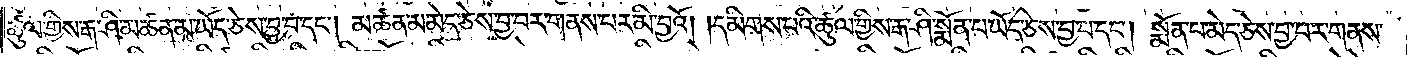ཚུལ་གྱིས་རྒ་ཤི་མཚན་མ་ཡོད་ཅེས་བྱ་བ་དང༌། མཚན་མ་མེད་ཅེས་བྱ་བར་གནས་པར་མི་བྱའོ། །དམིགས་པའི་ཚུལ་གྱིས་རྒ་ཤི་སྨོན་པ་ཡོད་ཅེས་བྱ་བ་དང༌། སྨོན་པ་མེད་ཅེས་བྱ་བར་གནས་
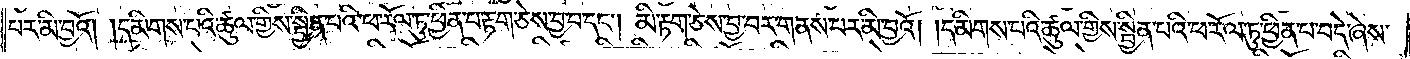པར་མི་བྱའོ། །དམིགས་པའི་ཚུལ་གྱིས་སྦྱིན་པའི་ཕ་རོལ་ཏུ་ཕྱིན་པ་རྟག་ཅེས་བྱ་བ་དང༌། མི་རྟག་ཅེས་བྱ་བར་གནས་པར་མི་བྱའོ། །དམིགས་པའི་ཚུལ་གྱིས་སྦྱིན་པའི་ཕ་རོལ་ཏུ་ཕྱིན་པ་བདེ་ཞེས་
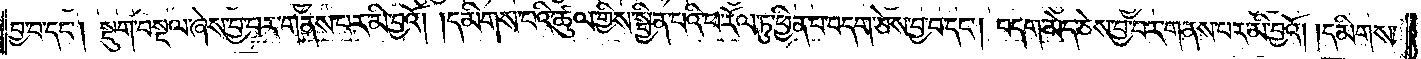བྱ་བ་དང༌། སྡུག་བསྔལ་ཞེས་བྱ་བར་གནས་པར་མི་བྱའོ། །དམིགས་པའི་ཚུལ་གྱིས་སྦྱིན་པའི་ཕ་རོལ་ཏུ་ཕྱིན་པ་བདག་ཅེས་བྱ་བ་དང༌། བདག་མེད་ཅེས་བྱ་བར་གནས་པར་མི་བྱའོ། །དམིགས་
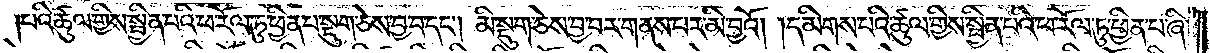པའི་ཚུལ་གྱིས་སྦྱིན་པའི་ཕ་རོལ་ཏུ་ཕྱིན་པ་སྡུག་ཅེས་བྱ་བ་དང༌། མི་སྡུག་ཅེས་བྱ་བར་གནས་པར་མི་བྱའོ། །དམིགས་པའི་ཚུལ་གྱིས་སྦྱིན་པའི་ཕ་རོལ་ཏུ་ཕྱིན་པ་ཞི་
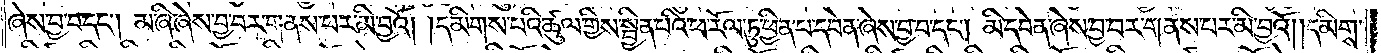ཞེས་བྱ་བ་དང༌། མ་ཞི་ཞེས་བྱ་བར་གནས་པར་མི་བྱའོ། །དམིགས་པའི་ཚུལ་གྱིས་སྦྱིན་པའི་ཕ་རོལ་ཏུ་ཕྱིན་པ་དབེན་ཞེས་བྱ་བ་དང༌། མི་དབེན་ཞེས་བྱ་བར་གནས་པར་མི་བྱའོ། །དམིགས་
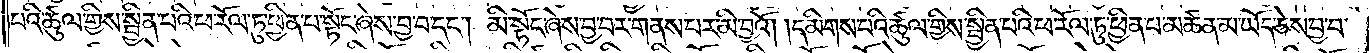པའི་ཚུལ་གྱིས་སྦྱིན་པའི་ཕ་རོལ་ཏུ་ཕྱིན་པ་སྟོང་ཞེས་བྱ་བ་དང༌། མི་སྟོང་ཞེས་བྱ་བར་གནས་པར་མི་བྱའོ། །དམིགས་པའི་ཚུལ་གྱིས་སྦྱིན་པའི་ཕ་རོལ་ཏུ་ཕྱིན་པ་མཚན་མ་ཡོད་ཅེས་བྱ་བ་
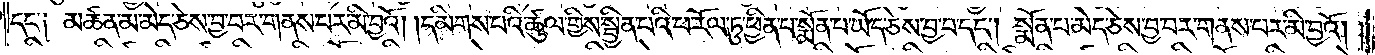དང༌༏ མཚན་མ་མེད་ཅེས་བྱ་བར་གནས་པར་མི་བྱའོ། །དམིགས་པའི་ཚུལ་གྱིས་སྦྱིན་པའི་ཕ་རོལ་ཏུ་ཕྱིན་པ་སྨོན་པ་ཡོད་ཅེས་བྱ་བ་དང༌། སྨོན་པ་མེད་ཅེས་བྱ་བར་གནས་པར་མི་བྱའོ། །
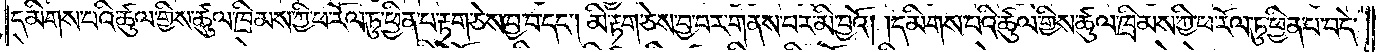དམིགས་པའི་ཚུལ་གྱིས་ཚུལ་ཁྲིམས་ཀྱི་ཕ་རོལ་ཏུ་ཕྱིན་པ་རྟག་ཅེས་བྱ་བ་དང༌། མི་རྟག་ཅེས་བྱ་བར་གནས་པར་མི་བྱའོ། །དམིགས་པའི་ཚུལ་གྱིས་ཚུལ་ཁྲིམས་ཀྱི་ཕ་རོལ་ཏུ་ཕྱིན་པ་བདེ་
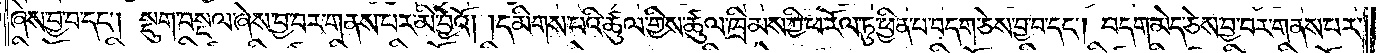ཞེས་བྱ་བ་དང༌། སྡུག་བསྔལ་ཞེས་བྱ་བར་གནས་པར་མི་བྱའོ། །དམིགས་པའི་ཚུལ་གྱིས་ཚུལ་ཁྲིམས་ཀྱི་ཕ་རོལ་ཏུ་ཕྱིན་པ་བདག་ཅེས་བྱ་བ་དང༌། བདག་མེད་ཅེས་བྱ་བར་གནས་པར་
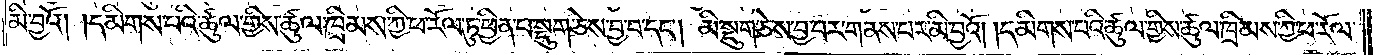མི་བྱའོ། །དམིགས་པའི་ཚུལ་གྱིས་ཚུལ་ཁྲིམས་ཀྱི་ཕ་རོལ་ཏུ་ཕྱིན་པ་སྡུག་ཅེས་བྱ་བ་དང༌། མི་སྡུག་ཅེས་བྱ་བར་གནས་པར་མི་བྱའོ། །དམིགས་པའི་ཚུལ་གྱིས་ཚུལ་ཁྲིམས་ཀྱི་ཕ་རོལ་
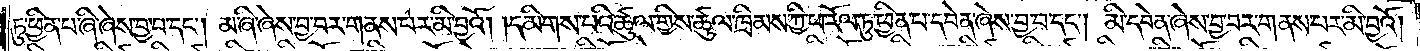ཏུ་ཕྱིན་པ་ཞི་ཞེས་བྱ་བ་དང༌། མ་ཞི་ཞེས་བྱ་བར་གནས་པར་མི་བྱའོ། །དམིགས་པའི་ཚུལ་གྱིས་ཚུལ་ཁྲིམས་ཀྱི་ཕ་རོལ་ཏུ་ཕྱིན་པ་དབེན་ཞེས་བྱ་བ་དང༌། མི་དབེན་ཞེས་བྱ་བར་གནས་པར་མི་བྱའོ། །
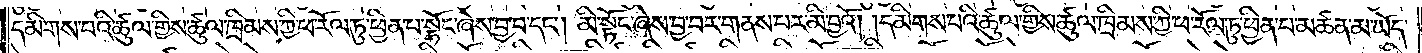དམིགས་པའི་ཚུལ་གྱིས་ཚུལ་ཁྲིམས་ཀྱི་ཕ་རོལ་ཏུ་ཕྱིན་པ་སྟོང་ཞེས་བྱ་བ་དང༌། མི་སྟོང་ཞེས་བྱ་བར་གནས་པར་མི་བྱའོ། །དམིགས་པའི་ཚུལ་གྱིས་ཚུལ་ཁྲིམས་ཀྱི་ཕ་རོལ་ཏུ་ཕྱིན་པ་མཚན་མ་ཡོད་
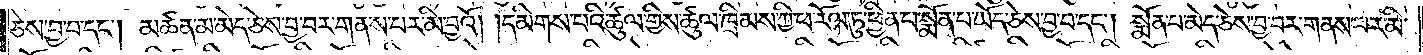ཅེས་བྱ་བ་དང༌། མཚན་མ་མེད་ཅེས་བྱ་བར་གནས་པར་མི་བྱའོ། །དམིགས་པའི་ཚུལ་གྱིས་ཚུལ་ཁྲིམས་ཀྱི་ཕ་རོལ་ཏུ་ཕྱིན་པ་སྨོན་པ་ཡོད་ཅེས་བྱ་བ་དང༌། སྨོན་པ་མེད་ཅེས་བྱ་བར་གནས་པར་མི་
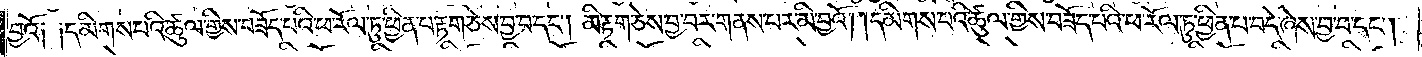བྱའོ། །དམིགས་པའི་ཚུལ་གྱིས་བཟོད་པའི་ཕ་རོལ་ཏུ་ཕྱིན་པ་རྟག་ཅེས་བྱ་བ་དང༌། མི་རྟག་ཅེས་བྱ་བར་གནས་པར་མི་བྱའོ། །དམིགས་པའི་ཚུལ་གྱིས་བཟོད་པའི་ཕ་རོལ་ཏུ་ཕྱིན་པ་བདེ་ཞེས་བྱ་བ་དང༌།
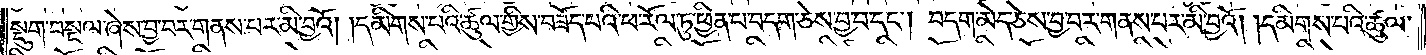སྡུག་བསྔལ་ཞེས་བྱ་བར་གནས་པར་མི་བྱའོ། །དམིགས་པའི་ཚུལ་གྱིས་བཟོད་པའི་ཕ་རོལ་ཏུ་ཕྱིན་པ་བདག་ཅེས་བྱ་བ་དང༌། བདག་མེད་ཅེས་བྱ་བར་གནས་པར་མི་བྱའོ། །དམིགས་པའི་ཚུལ་
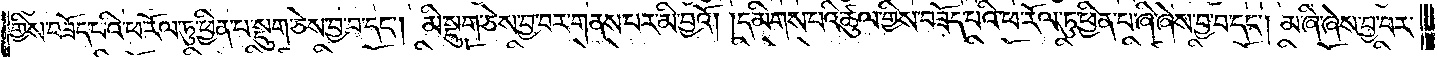གྱིས་བཟོད་པའི་ཕ་རོལ་ཏུ་ཕྱིན་པ་སྡུག་ཅེས་བྱ་བ་དང༌། མི་སྡུག་ཅེས་བྱ་བར་གནས་པར་མི་བྱའོ། །དམིགས་པའི་ཚུལ་གྱིས་བཟོད་པའི་ཕ་རོལ་ཏུ་ཕྱིན་པ་ཞི་ཞེས་བྱ་བ་དང༌། མ་ཞི་ཞེས་བྱ་བར་
